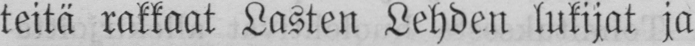teitä rakkaat Lasten Lehden lukijat ja
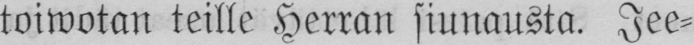toiwotan teille Herran siunausta. Jee-
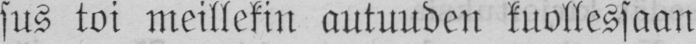sus toi meillekin autuuden kuollessaan
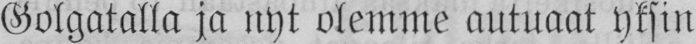Golgatalla ja nyt olemme autuaat yksin
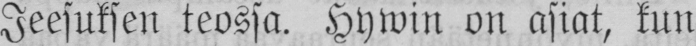Jeesuksen teossa. H ywin on asiat, kun
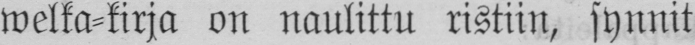welka-kirja on naulittu ristiin, synnit
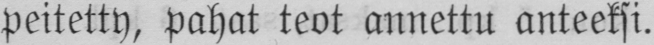peitetty, pahat teot annettu anteeksi.
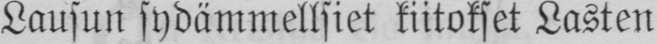Lausun sydämmellsiet kiitokset Lasten
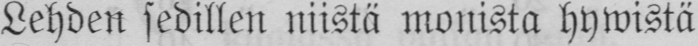Lehden sedillen niistä monista hywistä
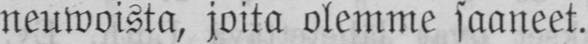neuwoista, joita olemme saaneet.
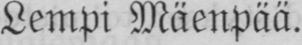Lempi Mäenpää.
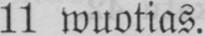11 wuotias.
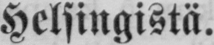Helsingistä.
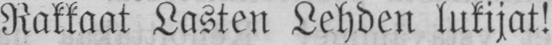Rakkaat Lasten Lehden lukijat!
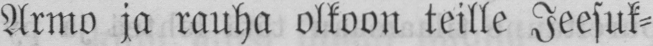Armo ja rauha olkoon teille Jeesuk-
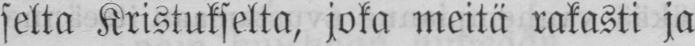selta Kristukselta, joka meitä rakasti ja
